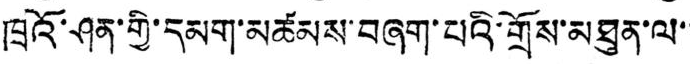ཁྲའོ་ཤན་གྱི་དམག་མཚམས་བཞག་པའི་གྲོས་མཐུན་ལ་་
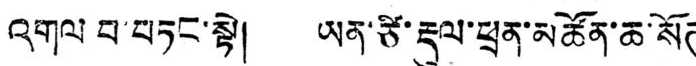འགལ བ བཏང་སྟེ། ཡན་ཙི་རྡུལ་ཕྲན་མཚོན་ཆ་སོཊ
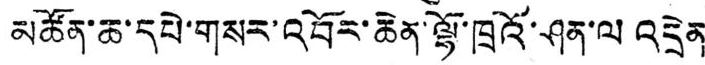མཚོན་ཆ་དཔེ་གསར་འབོར་ཆེན་ལྷོ་ཁྲའོ་ཤན་ལ འདྲེན
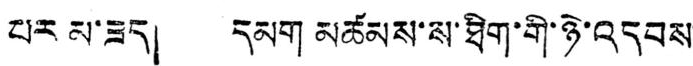པར མ་ཟད། དམག མཚམས་ས་ཐིག་གི་ཉེ་འདབས་
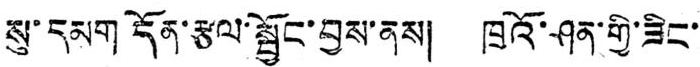སུ་དམག དོན་རྩལ་སྦྱོང་བྱས་ནས། ཁྲའོ་ཤན་གྱི་ཟིང་
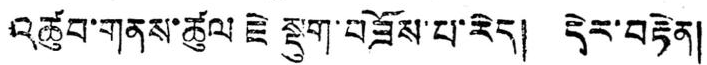འཚུབ་གནས་ཚུལ ཇེ སྡུག་བཟོས་པ་རེད། དེར་བརྟེན།
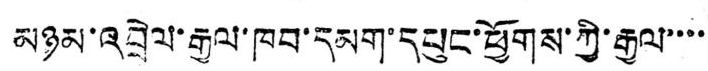མཉམ་འབྲེལ་རྒྱལ་ཁབ་དམག་དཔུང་ཕྱོགས་ཀྱི་རྒྱལ་་་་
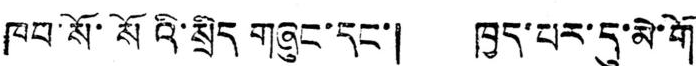ཁབ་སོ་སོའི་སྲིད གཞུང་དང་། ཁྱད་པར་དུ་མེ་གོ
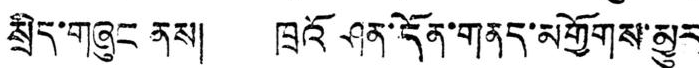སྲིད་གཞུང ནས། ཁྲའོ ཤན་དོན་གནད་མགྱོགས་མྱུར
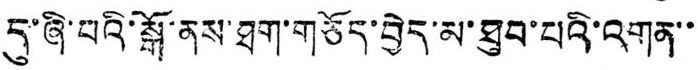དུ་ཞི་བའི་སྒོ་ནས་ཐག་གཅོད་བྱེད་མ་ཐུབ་པའི་འགན་་
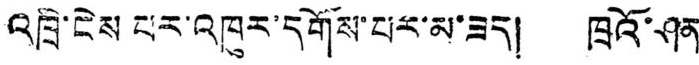འཁྲི་ངེས པར་འཁུར་དགོས་པར་མ་ཟད། ཁྲའོ་ཤན
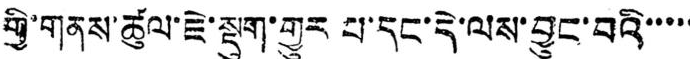གྱི་གནས་ཚུལ་ཇེ་སྡུག་གྱུར པ་དང་དེ་ལས་བྱུང་བའི་་་་་
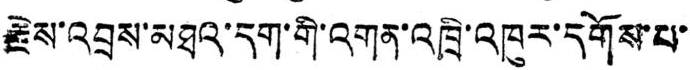རྗེས་འབྲས་མཐའ་དག་གི་འགན་འཁྲི་འཁུར་དགོས་པ་་
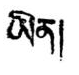ཡིན།
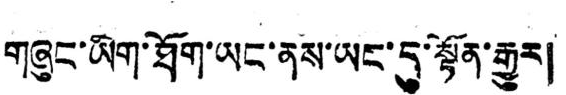གཞུང་ཡིག་ཐོག་ཡང་ནས་ཡང་དུ་སྟོན་རྒྱུར།
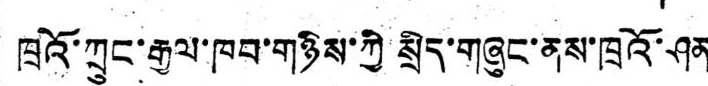ཁྲའོ་ཀྲུང་རྒྱལ་ཁབ་གཉིས་ཀྱི སྲིད་གཞུང་ནས་ཁྲའོ་ཤན
